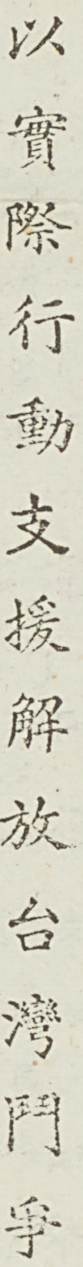以實際行動支援解放台灣鬥爭
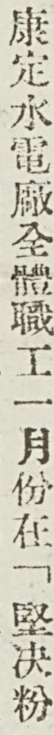康定水電廠全體職工一月份在「堅決粉
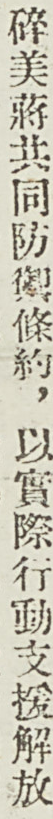碎美蔣共同防禦條約，以實際行動支援解放
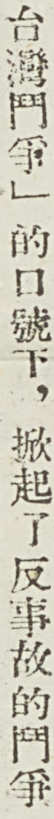台灣鬥爭」的口號下，掀起了反事故的鬥爭
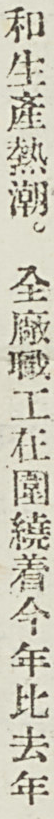和生產熱潮。全廠職工在圍繞着今年比去年
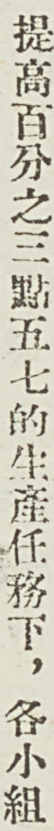提高百分之三點五七的生產任務下，各小組
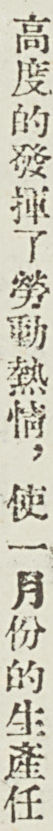高度的發揮了勞動熱情，使一月份的生產任
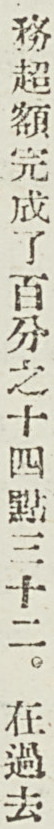務超額完成了百分之十四點三十二。在過去
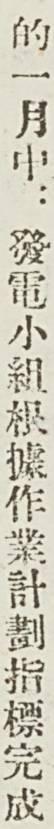的一月中：發電小組根據作業計劃指標完成
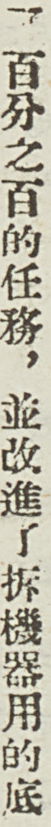了百分之百的任務，並改進了拆機器用的底
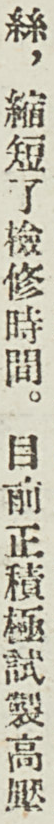絲，縮短了檢修時間。目前正積極試製高壓
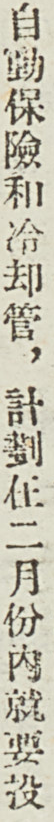自動保險和冷卻管，計劃在二月份內就要投
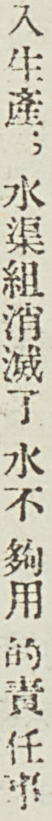入生產；水渠組消滅了水不夠用的責任事
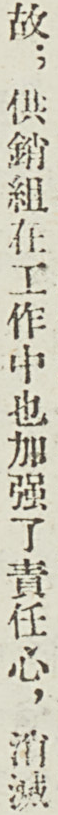故；供銷組在工作中也加強了責任心，消滅
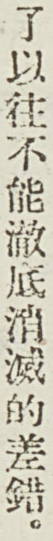了以往不能徹底消滅的差錯。
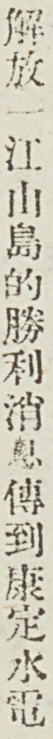解放一江山島的勝利消息傳到康定水電
